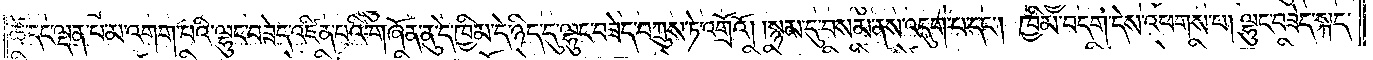ཚེ་དང་ལྡན་པ་མ་འགག་པའི་ལྷུང་བཟེད་འཛིན་པའི་གཞོན་ནུ་དེ་ཁྱིམ་དེ་ཉིད་དུ་ལྷུང་བཟེད་བཀྲུས་ཏེ་འགྲོའོ། །སྙམ་དུ་བསམ་ནས་འདུག་པ་དང༌། ཁྱིམ་བདག་དེས་འཕགས་པ། ལྷུང་བཟེད་སྐད་
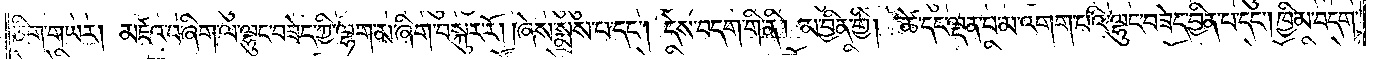ཅིག་གཡར། མཛའ་བ་ཞིག་ལ་ལྷུང་བཟེད་ཀྱི་ལྷག་མ་ཞིག་བསྐུར་རོ། །ཞེས་སྨྲས་པ་དང༌། དེས་བདག་གི་ནི། མ་བྱིན་གྱི། ཚེ་དང་ལྡན་པ་མ་འགག་པའི་ལྷུང་བཟེད་བྱིན་པ་དང༌། ཁྱིམ་བདག་
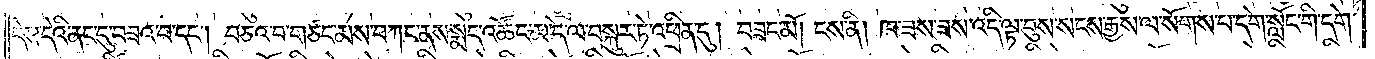དེས་དེའི་ནང་དུ་བཟའ་བ་དང༌། བཅའ་བ་གཙང་མས་བཀང་ནས་སྨད་འཚོང་མ་དེ་ལ་བསྐུར་ཏེ་འཕྲིན་དུ། བཟང་མོ། ངས་ནི། ཁ་ཟས་ཟས་འདི་ལྟ་བུས་སངས་རྒྱས་ལ་སོགས་པ་དགེ་སློང་གི་དགེ་
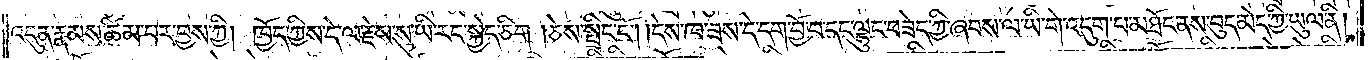འདུན་རྣམས་ཚིམ་པར་བྱས་ཀྱི། ཁྱོད་ཀྱིས་དེ་ལ་རྗེས་སུ་ཡི་རང་སྐྱེད་ཅིག །ཅེས་སྤྲིང་ངོ༌། །དེས་ཁ་ཟས་དེ་དག་བྱོ་བ་དང་ལྷུང་བཟེད་ཀྱི་ཞབས་ལ་ཡི་གེ་འདུག་པ་མཐོང་ནས་བུད་མེད་ཀྱི་ཡུལ་ནི།
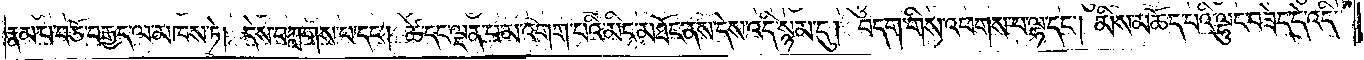རྣམ་པ་བཅོ་བརྒྱད་ལ་མཁས་ཏེ། དེས་བཀླགས་པ་དང༌། ཚེ་དང་ལྡན་པ་མ་འགག་པའི་མིང་མཐོང་ནས་དེས་འདི་སྙམ་དུ། བདག་གིས་འཕགས་པ་ལྷ་དང༌། མིས་མཆོད་པའི་ལྷུང་བཟེད་དེ་འདི་
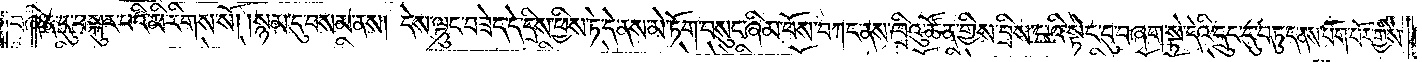བཞིན་དུ་བསྐུར་བའི་མི་རིགས་སོ། །སྙམ་དུ་བསམ་ནས། དེས་ལྷུང་བཟེད་དེ་དྲིས་ཕྱིས་ཏེ་དེ་ནས་མེ་ཏོག་བསུང་ཞིམ་པོས་བཀང་ནས་ཁྲིའུ་ཚོན་གྱིས་བྲིས་པའི་སྟེང་དུ་བཞག་སྟེ་དེའི་དྲུང་དུ་བཏུད་ནས་པོག་པོར་གྱིས་
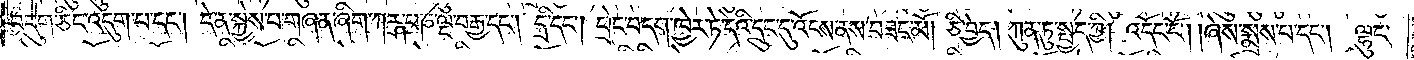བདུག་ཅིང་འདུག་པ་དང༌། དེ་ན་སྐྱེད་པ་གཞན་ཞིག་ཀརྴ་པཎ་ལྔ་བརྒྱ་དང༌། དྲི་དང༌། ཕྲེང་བ་དག་ཁྱེར་ཏེ་དེའི་དྲུང་དུ་འོངས་ནས་བཟང་མོ། ཅི་བྱེད། ཀུན་ཏུ་སྤྱད་ཀྱི། འདོང་ངོ༌། །ཞེས་སྨྲས་པ་དང༌། ལྷུང་
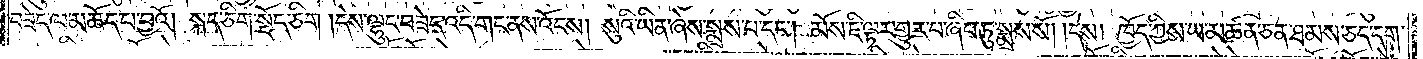བཟེད་ལ་མཆོད་པ་བྱའོ། སྐད་ཅིག་སྡོད་ཅིག །དེས་ལྷུང་བཟེད་འདི་གང་ནས་འོངས། སུའི་ཡིན་ཞེས་སྨྲས་པ་དང༌། མོས་ཇི་ལྟར་གྱུར་པ་ཞིབ་ཏུ་སྨྲས་སོ། །དེས། ཁྱོད་ཀྱིས་ཡ་མཚན་ཅན་ཐམས་ཅད་དག་
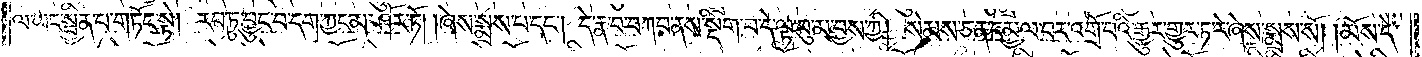ལ་ཡང་སྦྱིན་པ་གཏོང་སྟེ། རབ་ཏུ་བྱུང་བ་དག་ཀྱང་མ་ཤོར་ཏོ། །ཞེས་སྨྲས་པ་དང༌། དེ་རྣ་བ་བཀབ་ནས་སྡིག་པ་དེ་ལྟ་བུ་མ་བྱས་ཀྱི། སེམས་ཅན་དམྱལ་བར་འགྲོ་བའི་རྒྱུར་གྱུར་ཏ་རེ་ཞེས་སྨྲས་སོ། །མོས་དེ་
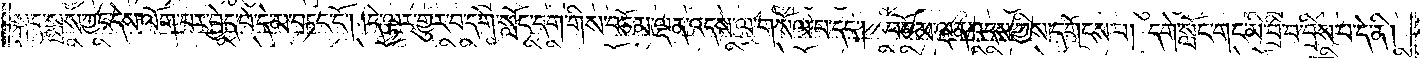སྐད་སྨྲས་ཀྱང་དེས་ལོག་པར་བྱེད་པ་དེ་མ་བཏང་ངོ༌། །དེ་ལྟར་གྱུར་པ་དགེ་སློང་དག་གིས་བཅོམ་ལྡན་འདས་ལ་གསོལ་པ་དང༌། བཅོམ་ལྡན་འདས་ཀྱིས་དགོངས་པ། དགེ་སློང་གང་མི་བྲི་བ་བྲིས་པ་དེ་ནི།
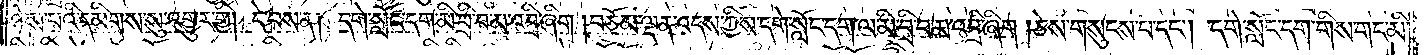ཉེས་པའི་དམིགས་སུ་འགྱུར་གྱི། དེ་བས་ན། དགེ་སློང་དག་མི་བྲི་བ་མ་འབྲི་ཞིག །བཅོམ་ལྡན་འདས་ཀྱིས་དགེ་སློང་དག་ལ་མི་བྲི་བ་མ་འབྲི་ཞིག །ཅེས་གསུངས་པ་དང༌། དགེ་སློང་དག་གིས་གང་མི་
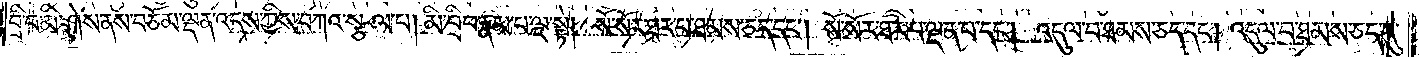བྲི་བ་མི་ཤེས་ནས་བཅོམ་ལྡན་འདས་ཀྱིས་བཀའ་སྩལ་པ། མི་བྲི་པ་རྣམ་པ་ལྔ་སྟེ། སོ་སོར་ཐར་པ་ཐམས་ཅད་དང༌། སོ་སོར་ཐར་པ་ལྡན་པ་དང༌། འདུལ་བ་ཐམས་ཅད་དང༌། འདུལ་བ་ཐམས་ཅད་དུ་
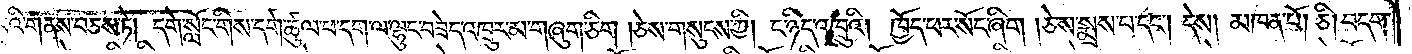པའི་གནས་བཅས་ཏེ། དགེ་སློང་གིས་དགེ་ཚུལ་ཕ་དག་ལ་ལྷུང་བཟེད་འཁྲུར་མ་གཞུག་ཅིག །ཅེས་གསུངས་ཀྱི། ང་ཉིད་འཁྲུའི། ཁྱོད་ཕར་སོང་ཞིག །ཅེས་སྨྲས་པ་དང༌། དེས། མཁན་པོ། ཅི། བདག་
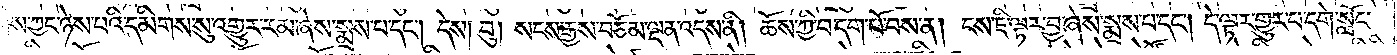གིས་ཀྱང་ཉེས་པའི་དམིགས་སུ་འགྱུར་རམ་ཞེས་སྨྲས་པ་དང༌། དེས། བུ། སངས་རྒྱས་བཅོམ་ལྡན་འདས་ནི། ཆོས་ཀྱི་བདག་པོ་བས་ན། ངས་ཇི་ལྟར་བྱ་ཞེས་སྨྲས་པ་དང༌། དེ་ལྟར་གྱུར་པ་དགེ་སློང་
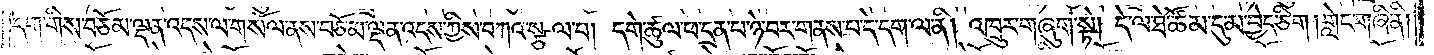དག་གིས་བཅོམ་ལྡན་འདས་ལ་གསོལ་ནས་བཅོམ་ལྡན་འདས་ཀྱིས་བཀའ་སྩལ་པ། དགེ་ཚུལ་ཕ་དྲན་པ་ཉེ་བར་གནས་པ་དེ་དག་ལ་ནི། འཁྲུར་གཞུག་སྟེ། དེ་ལ་ཐེ་ཚོམ་དུ་མ་བྱེད་ཅིག །གླེང་གཞི་ནི།
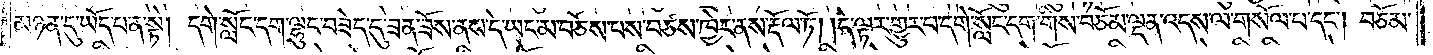མཉན་དུ་ཡོད་པ་ན་སྟེ། དགེ་སློང་དག་ལྷུང་བཟེད་དུ་ཟན་ཟོས་ནས་དེ་ཡང་མ་བཅོས་པས་བཙས་ཁྱེར་ནས་རྡོལ་ཏོ། །དེ་ལྟར་གྱུར་པ་དགེ་སློང་དག་གིས་བཅོམ་ལྡན་འདས་ལ་གསོལ་བ་དང༌། བཅོམ་
